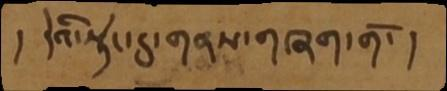།   དེའི་སྟེང་དུ་གནས་གཞག་གོ་ །
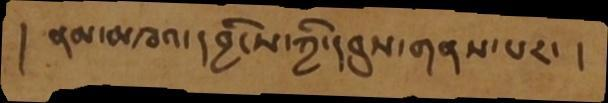།  ནམ་མཁའ་དབྱིངས་ཀྱི་དབུས་གནས་པར་ །
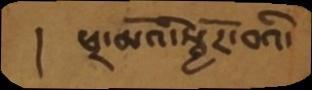།  ཕྲ་མོའི་སྦྱོར་བའི་
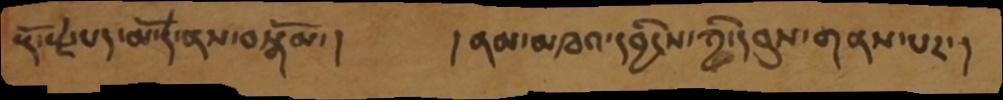རྡོ་རྗེ་པད་མོ་དེ་ནས་བསྒོམ་ །          ། ནམ་མཁའ་དབྱིངས་ཀྱི་དབུས་གནས་པར་།
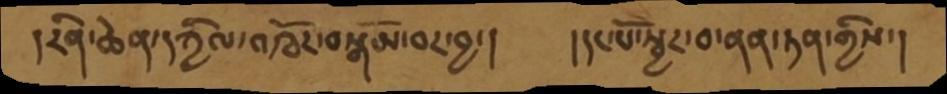། རིན་ཆེན་དཀྱིལ་འཁོར་བསྒོམ་བར་བྱ་།         །དང་པོ་སྦྱར་བ་ནན་ཏན་གྱིས་ །
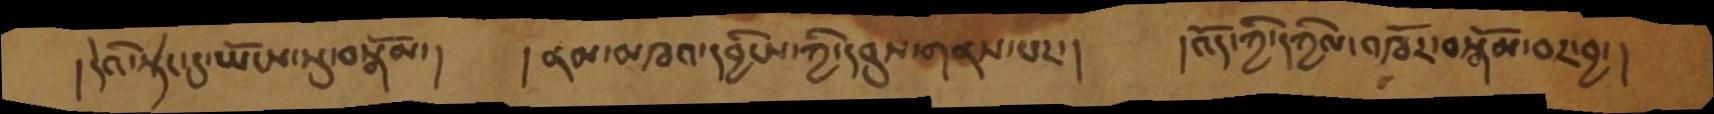། དེའི་སྡེང་དུ་ཡོངས་སུ་བསྒོམ་།     ། ནམ་མཁའ་དབྱིངས་ཀྱི་དབུས་གནས་པར་།     །འོད་ཀྱི་དཀྱིལ་འཁོར་བསྒོམ་བར་བྱ་ །
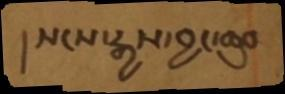། སངས་རྒྱས་བྱང་ཆུབ
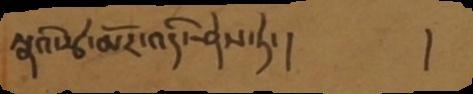སྣའི་རྩེ་མོར་འདི་ཤེས་ཏེ་ །               །
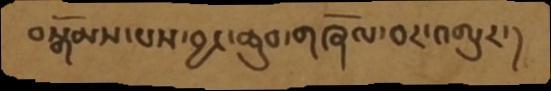བསྒོམས་པས་བྱང་ཆུབ་གཞོལ་བར་འགྱུར་།
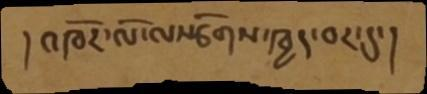། འཁོར་ལོ་ལསྩོགས་ཁྱད་བར་དུ་ །
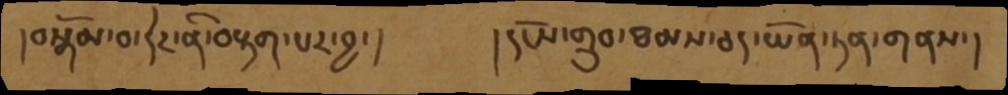། བསྒོམ་བ་དེར་ནི་བརྟག་པར་བྱ་ །         ། དངོས་གྲུབ་ཐམས་ཅད་ཡོན་ཏན་གནས་།
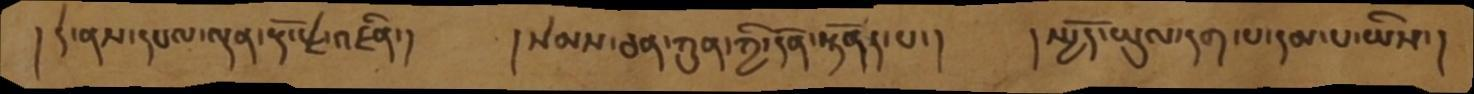། དེ་ནས་དཔལ་ལྡན་རྡོ་རྗེ་འཛིན་།     ། སེམས་ཅན་ཀུན་གྱི་དོན་སྟོནད་པ་།   ། སྤྱོད་ཡུལ་དག་པ་དམ་པ་ཡིས་།
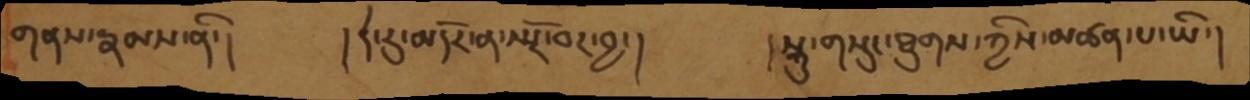གནས་རྣམས་ནི་།       །དེ་རུ་མདོར་ན་བསྔོ་བར་བྱ་།     ། སྐུ་གསུང་ཐུགས་ཀྱིས་མཚན་པ་ཡི་།
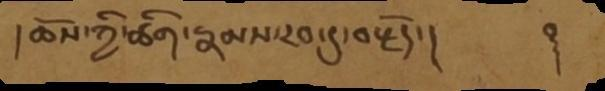། ཆོས་ཀྱི་ཚིག་རྣམས་རབ་དུ་བརྗོད་ །             ࿑
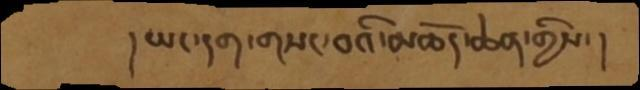། ཡང་དག་གསང་བའི་མཆོད་ཆེན་གྱིས་།
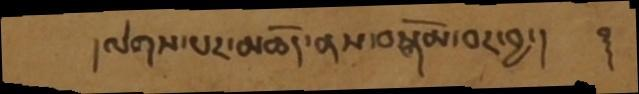། ལེགས་པར་མཆོད་ནས་བསྒོམ་བར་བྱ་ །    ࿑
